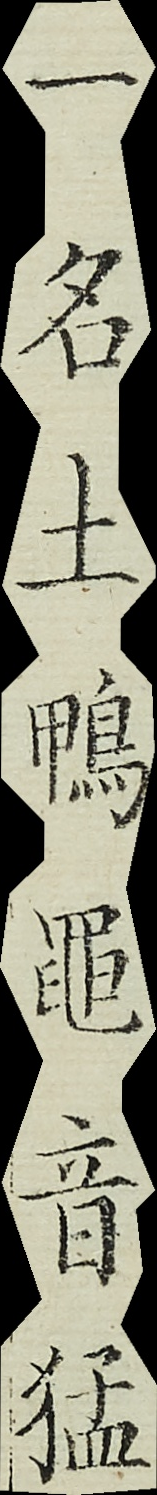一名土鴨黽音猛
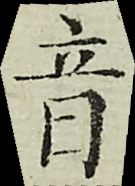音
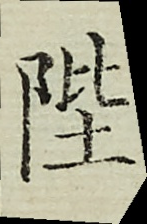陛
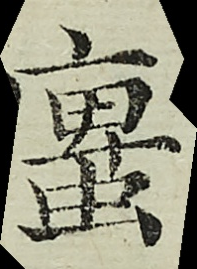螷
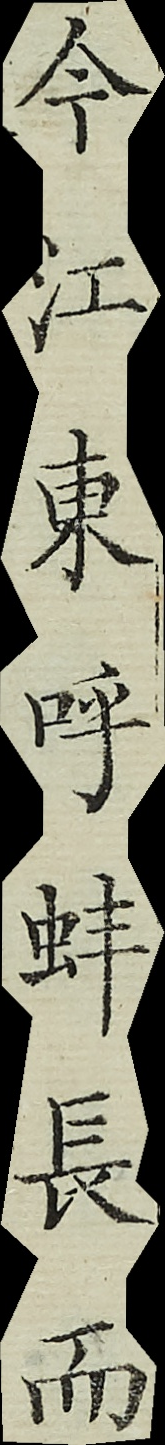今江東呼蚌長而
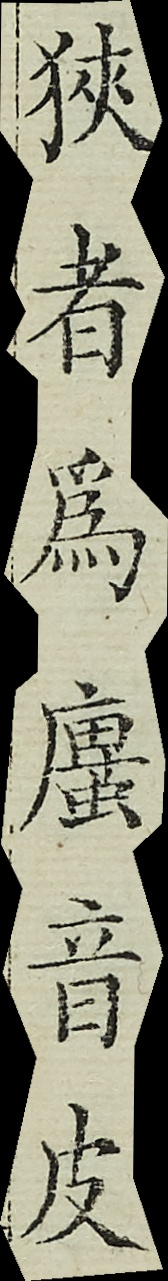狹者為螷音皮
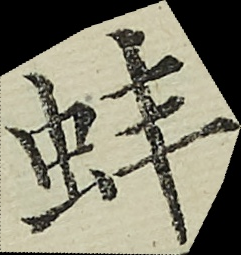蚌
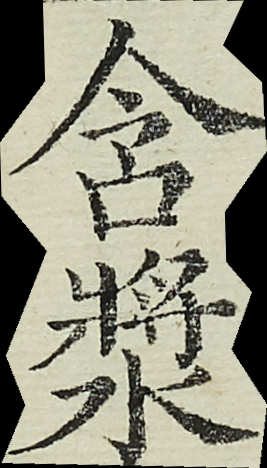含漿
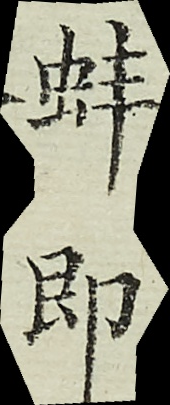蚌即
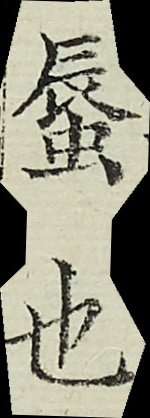蜃也
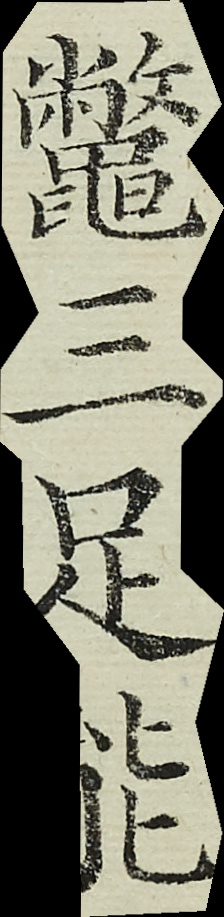鱉三足能
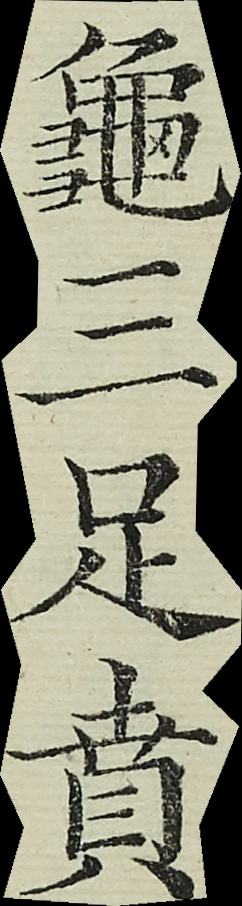龜三足賁
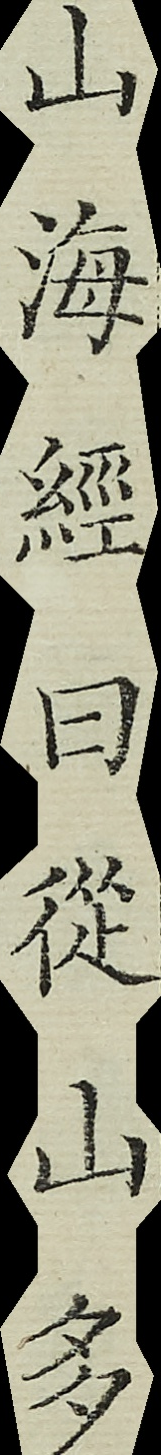山海經曰從山多
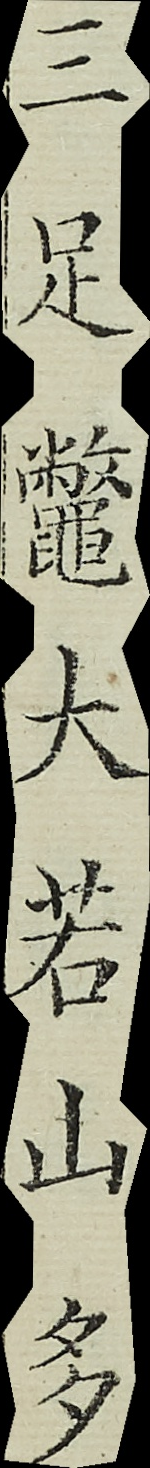三足鱉大若山多
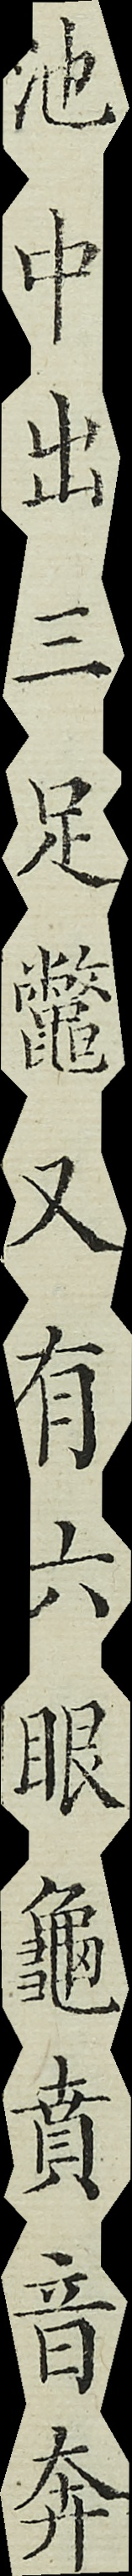池中出三足鱉又有六眼龜賁音奔
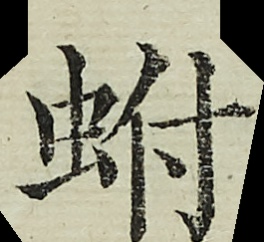蚹
